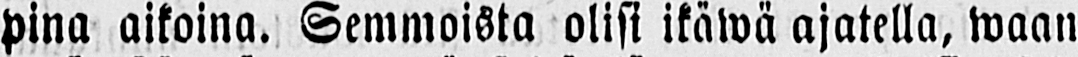pina aikoina. Semmoista olisi ikäwä ajatella, waan
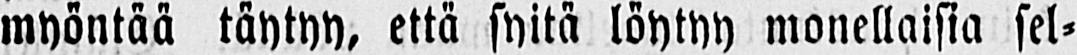myöntää täytyy, että syitä löytyy monellaisia sel-
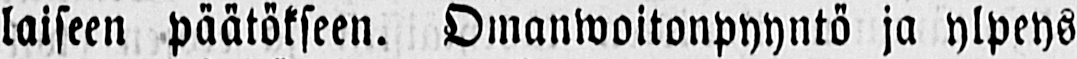laiseen päätökseen. Omanwoitonpyyntö ja ylpeys
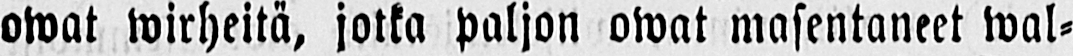owat wirheitä, jotka paljon owat masentaneet wal-
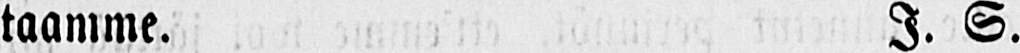taamme. I. S.
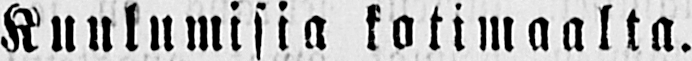Kuulumisia kotimaalta.
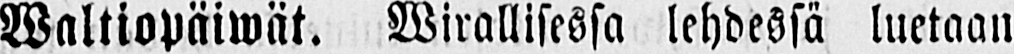Waltiopäiwät. Wirallisessa lehdessä luetaan
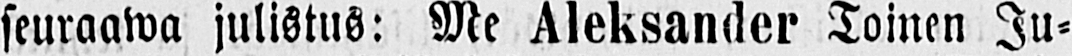seuraawa julistus: Me Aleksander Toinen Ju-
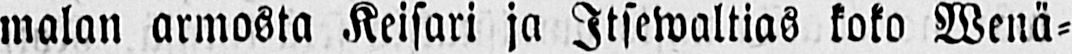malan armosta Keisari ja Itsewaltias koko Wenä-
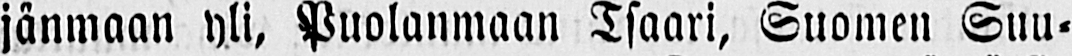jänmaan yli, Puolanmaan Tsaari, Suomen Suu-
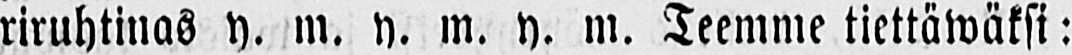riruhtiuas y. m. y. m. y. m. Teemme tiettäwäksi:
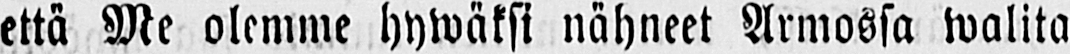että Me olemme hywäksi nähneet Armossa walita
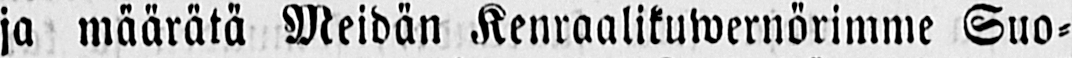ja määrätä Meidän Kenraalikuwernörimme Suo-
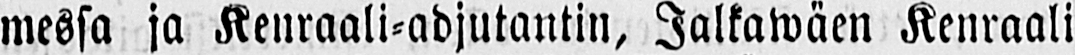messa ja Kenraali-adjutantin, Jalkawäen Kenraali
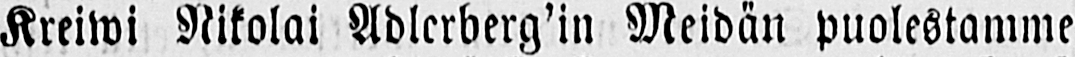Kreiwi Nikolai Adlerberg’in Meidän puolestamme
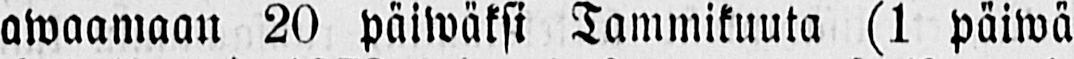omaamaan 20 päiwäksi Tammikuuta (1 päiwä
